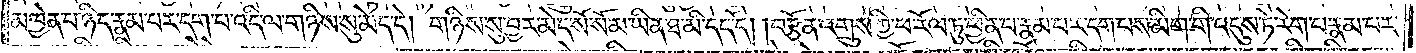མཁྱེན་པ་ཉིད་རྣམ་པར་དག་པ་འདི་ལ་གཉིས་སུ་མེད་དེ། གཉིས་སུ་བྱར་མེད་སོ་སོ་མ་ཡིན་ཐ་མི་དད་དོ། །བརྩོན་འགྲུས་ཀྱི་ཕ་རོལ་ཏུ་ཕྱིན་པ་རྣམ་པར་དག་པས་མིག་གི་འདུས་ཏེ་རེག་པ་རྣམ་པར་
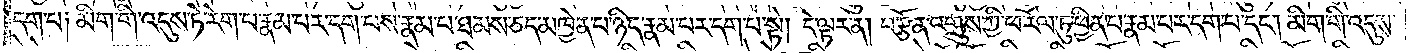དག་པ། མིག་གི་འདུས་ཏེ་རེག་པ་རྣམ་པར་དག་པས་རྣམ་པ་ཐམས་ཅད་མཁྱེན་པ་ཉིད་རྣམ་པར་དག་པ་སྟེ། དེ་ལྟར་ན། བརྩོན་འགྲུས་ཀྱི་ཕ་རོལ་ཏུ་ཕྱིན་པ་རྣམ་པར་དག་པ་དང༌། མིག་གི་འདུས་
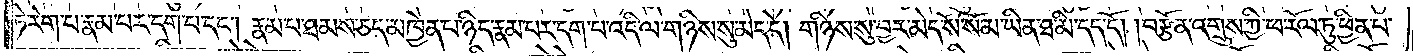ཏེ་རེག་པ་རྣམ་པར་དག་པ་དང༌། རྣམ་པ་ཐམས་ཅད་མཁྱེན་པ་ཉིད་རྣམ་པར་དག་པ་འདི་ལ་གཉིས་སུ་མེད་དེ། གཉིས་སུ་བྱར་མེས་སོ་སོ་མ་ཡིན་ཐ་མི་དད་དོ། །བརྩོན་འགྲུས་ཀྱི་ཕ་རོལ་ཏུ་ཕྱིན་པ་
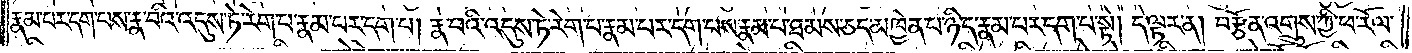རྣམ་པར་དག་པས་རྣ་བའི་འདུས་ཏེ་རེག་པ་རྣམ་པར་དག་པ། རྣ་བའི་འདུས་ཏེ་རེག་པ་རྣམ་པར་དག་པས་རྣམ་པ་ཐམས་ཅད་མཁྱེན་པ་ཉིད་རྣམ་པར་དག་པ་སྟེ། དེ་ལྟར་ན། བརྩོན་འགྲུས་ཀྱི་ཕ་རོལ་
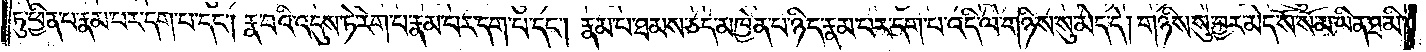ཏུ་ཕྱིན་པ་རྣམ་པར་དག་པ་དང༌། རྣ་བའི་འདུས་ཏེ་རེག་པ་རྣམ་པར་དག་པ་དང༌། རྣམ་པ་ཐམས་ཅད་མཁྱེན་པ་ཉིད་རྣམ་པར་དག་པ་འདི་ལ་གཉིས་སུ་མེད་དེ། གཉིས་སུ་བྱར་མེད་སོ་སོ་མ་ཡིན་ཐ་མི་
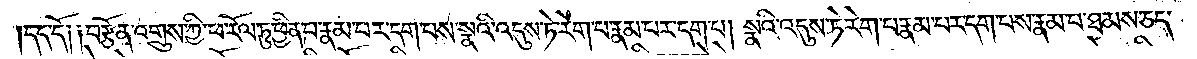དད་དོ། །བརྩོན་འགྲུས་ཀྱི་ཕ་རོལ་ཏུ་ཕྱིན་པ་རྣམ་པར་དག་པས་སྣའི་འདུས་ཏེ་རེག་པ་རྣམ་པར་དག་པ། སྣའི་འདུས་ཏེ་རེག་པ་རྣམ་པར་དག་པས་རྣམ་པ་ཐམས་ཅད་
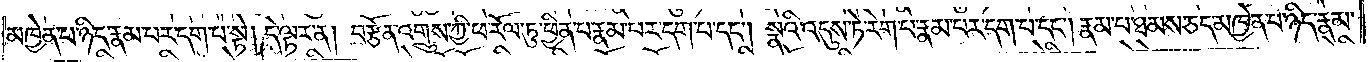མཁྱེན་པ་ཉིད་རྣམ་པར་དག་པ་སྟེ། དེ་ལྟར་ན། བརྩོན་འགྲུས་ཀྱི་ཕ་རོལ་ཏུ་ཕྱིན་པ་རྣམ་པར་དག་པ་དང༌། སྣའི་འདུས་ཏེ་རེག་པ་རྣམ་པར་དག་པ་དང༌། རྣམ་པ་ཐམས་ཅད་མཁྱེན་པ་ཉིད་རྣམ་
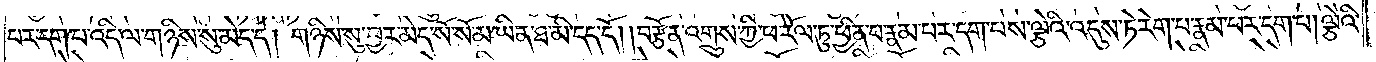པར་དག་པ་འདི་ལ་གཉིས་སུ་མེད་དེ། གཉིས་སུ་བྱར་མེད་སོ་སོ་མ་ཡིན་ཐ་མི་དད་དོ། །བརྩོན་འགྲུས་ཀྱི་ཕ་རོལ་ཏུ་ཕྱིན་པ་རྣམ་པར་དག་པས་ལྕེའི་འདུས་ཏེ་རེག་པ་རྣམ་པར་དག་པ། ལྕེའི་
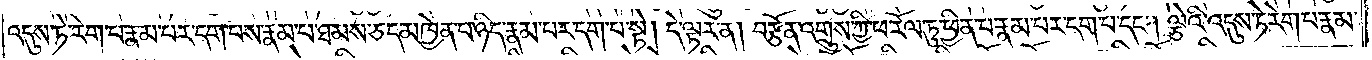འདུས་ཏེ་རེག་པ་རྣམ་པར་དག་པས་རྣམ་པ་ཐམས་ཅད་མཁྱེན་པ་ཉིད་རྣམ་པར་དག་པ་སྟེ། དེ་ལྟར་ན། བརྩོན་འགྲུས་ཀྱི་ཕ་རོལ་ཏུ་ཕྱིན་པ་རྣམ་པར་དག་པ་དང༌། ལྕེའི་འདུས་ཏེ་རེག་པ་རྣམ་
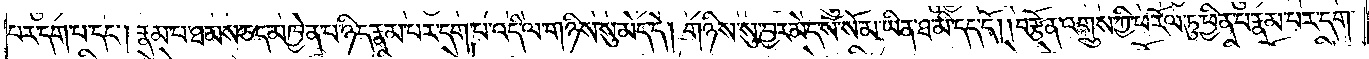པར་དག་པ་དང༌། རྣམ་པ་ཐམས་ཅད་མཁྱེན་པ་ཉིད་རྣམ་པར་དག་པ་འདི་ལ་གཉིས་སུ་མེད་དེ། གཉིས་སུ་བྱར་མེད་སོ་སོ་མ་ཡིན་ཐ་མི་དད་དོ། །བརྩོན་འགྲུས་ཀྱི་ཕ་རོལ་ཏུ་ཕྱིན་པ་རྣམ་པར་དག་
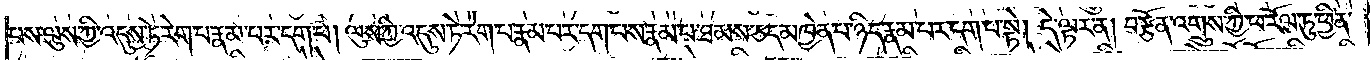པས་ལུས་ཀྱི་འདུས་ཏེ་རེག་པ་རྣམ་པར་དག་པ། ལུས་ཀྱི་འདུས་ཏེ་རེག་པ་རྣམ་པར་དག་པས་རྣམ་པ་ཐམས་ཅད་མཁྱེན་པ་ཉིད་རྣམ་པར་དག་པ་སྟེ། དེ་ལྟར་ན་བརྩོན་འགྲུས་ཀྱི་ཕ་རོལ་ཏུ་ཕྱིན་
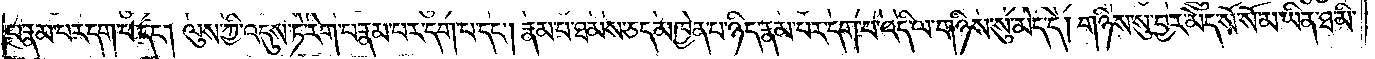པ་རྣམ་པར་དག་པ་དང༌། ལུས་ཀྱི་འདུས་ཏེ་རེག་པ་རྣམ་པར་དག་པ་དང༌། རྣམ་པ་ཐམས་ཅད་མཁྱེན་པ་ཉིད་རྣམ་པར་དག་པ་འདི་ལ་གཉིས་སུ་མེད་དེ། གཉིས་སུ་བྱར་མེད་སོ་སོ་མ་ཡིན་ཐ་མི་
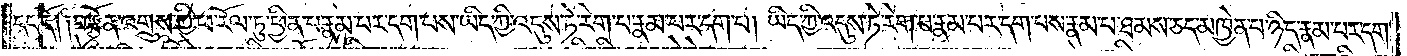དད་དོ། །བརྩོན་འགྲུས་ཀྱི་ཕ་རོལ་ཏུ་ཕྱིན་པ་རྣམ་པར་དག་པས་ཡིད་ཀྱི་འདུས་ཏེ་རེག་པ་རྣམ་པར་དག་པ། ཡིད་ཀྱི་འདུས་ཏེ་རེག་པ་རྣམ་པར་དག་པས་རྣམ་པ་ཐམས་ཅད་མཁྱེན་པ་ཉིད་རྣམ་པར་དག་
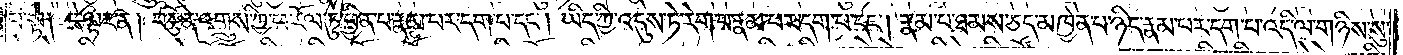པ་སྟེ། དེ་ལྟར་ན་བརྩོན་འགྲུས་ཀྱི་ཕ་རོལ་ཏུ་ཕྱིན་པ་རྣམ་པར་དག་པ་དང༌། ཡིད་ཀྱི་འདུས་ཏེ་རེག་པ་རྣམ་པར་དག་པ་དང༌། རྣམ་པ་ཐམས་ཅད་མཁྱེན་པ་ཉིད་རྣམ་པར་དག་པ་འདི་ལ་གཉིས་སུ་
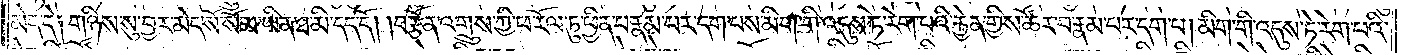མེད་དེ། གཉིས་སུ་བྱར་མེད་སོ་སོ་མ་ཡིན་ཐ་མི་དད་དོ། །བརྩོན་འགྲུས་ཀྱི་ཕ་རོལ་ཏུ་ཕྱིན་པ་རྣམ་པར་དག་པས་མིག་གི་འདུས་ཏེ་རེག་པའི་རྐྱེན་གྱིས་ཚོར་བ་རྣམ་པར་དག་པ། མིག་གི་འདུས་ཏེ་རེག་པའི་
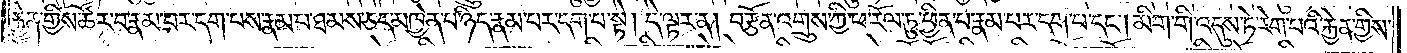རྐྱེན་གྱིས་ཚོར་བ་རྣམ་པར་དག་པས་རྣམ་པ་ཐམས་ཅད་མཁྱེན་པ་ཉིད་རྣམ་པར་དག་པ་སྟེ། དེ་ལྟར་ན། བརྩོན་འགྲུས་ཀྱི་ཕ་རོལ་ཏུ་ཕྱིན་པ་རྣམ་པར་དག་པ་དང༌། མིག་གི་འདུས་ཏེ་རེག་པའི་རྐྱེན་གྱིས་
